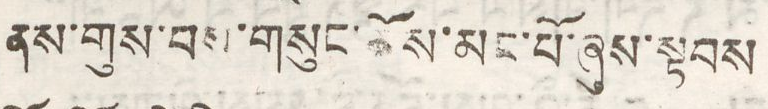ནས་གུས་བས་གསུང་ཆོས་མང་པོ་ཞུས་སྟབས
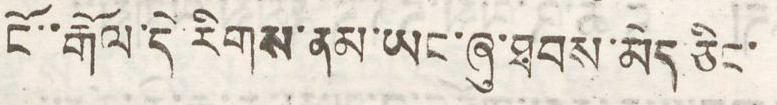ངོ་རྒོལ་དེ རིགས་ནམ་ཡང་ཞུ་ཐབས་མེད་ཅིང་
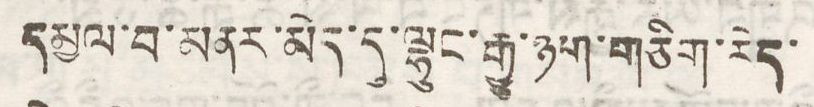དམྱལ་བ་མནར་མེད་དུ་ལྷུང་རྒྱུ་ཉག་གཅིག་རེད་
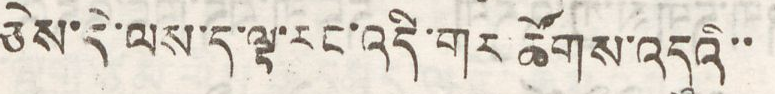ཅེས་དེ་ལས་ད་ལྟ་རང་འདི་གར་ཚོགས་འདུའི་་་
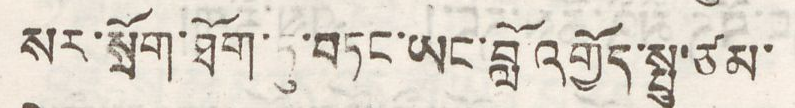སར་སྲོག་ཐོག་ཏུ་བཏང་ཡང་བློ འགྱོད་སྤུ་ཙམ་
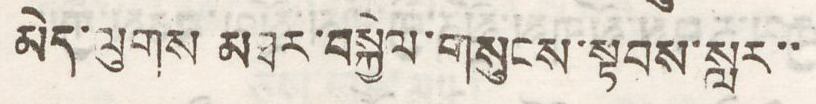མེད་ལུགས མཐར་བསྐྱེལ་གསུངས་སྟབས་སླར་་
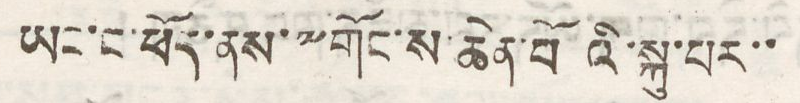ཡང་ང་ཕོད་ནས་༸གོང་ས་ཆེན་པོའི་སྐུ་པར་་
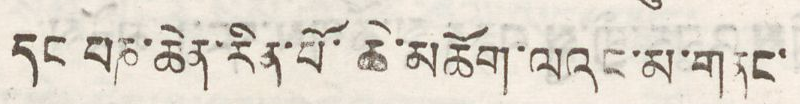དང པཎ་ཆེན་རིན་པོ་ཆེ་མཆོག་ལའང་མ་གནང་
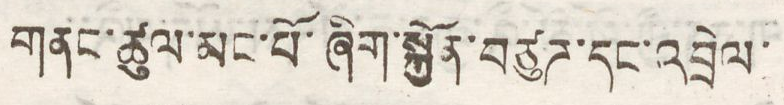གནང་ཚུལ་མང་པོ་ཞིག་སྐྱོན་བཙུཌ་དང་འབྲེལ་
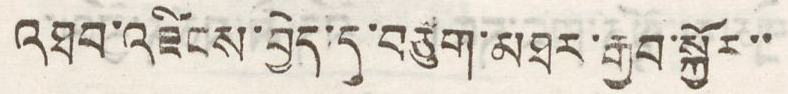འཐབ་འཛིངས་བྱེད་དུ་བཙུག་མཐར་རྒྱབ་སྐྱོར་་
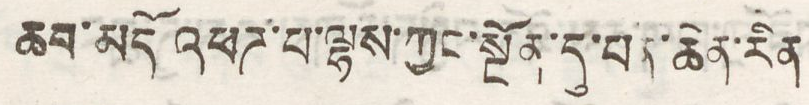ཆབ་མདོ འཕཌ་པ་ལྷས་ཀྱང་སྔོན་དུ་པན་ཆེན་རིན
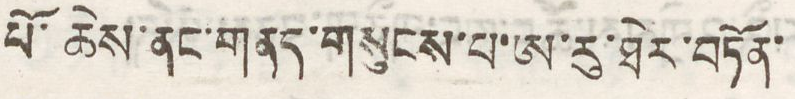པོ་ཆེས་ནང་གནད་གསུངས་པ་ཨ་རུ་ཐེར་བཏོན་
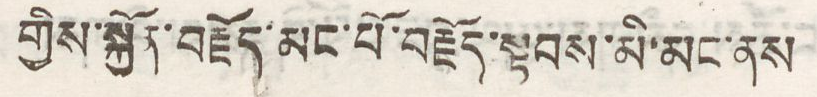གྱིས་སྐྱོན་བརྗོད་མང་པོ་བརྗོད་སྟབས་མི་མང་ནས
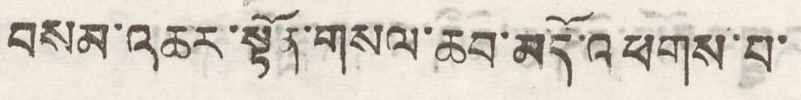བསམ་འཆར་སྟོན་གསལ་ཆབ་མདོ་འཕགས་པ་
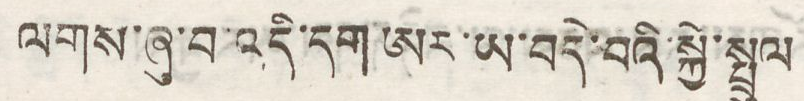ལགས་ཞུ་བ་འདི་དག་ཨར་ཡ་བདེ་བའི་སྐྱེ་སྤྲུལ
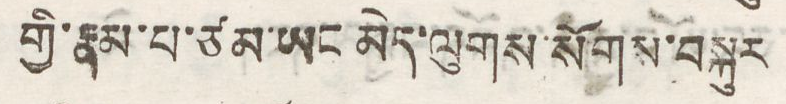གྱི་རྣམ་པ་ཙམ་ཡང་མེད་ལུགས་སོགས་བསྐུར
